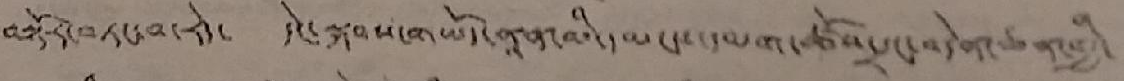བསྟོར་བཏང་བ་རེད་ དེང་སྐབས་གཡོད་ནཱན་མི་དམངས་དམག་ཚོས་དྲང་འདེན་ཅན་གྱི་
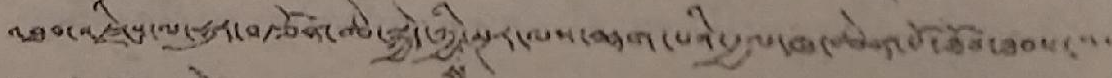འཐབ་འཛིངས་ལ་ཧུར་བརྩོན་ཆེ་སྐྱེད་ཀི་སྔར་ལས་ལྷག་པའི་རྒྱལ་ཁ་ཆེན་པོ་ཐོབ་ཐབས་་་་
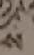ས
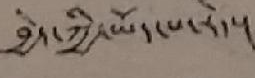བྱེད་ཀྱི་ཡོད་པ་རེད་།
